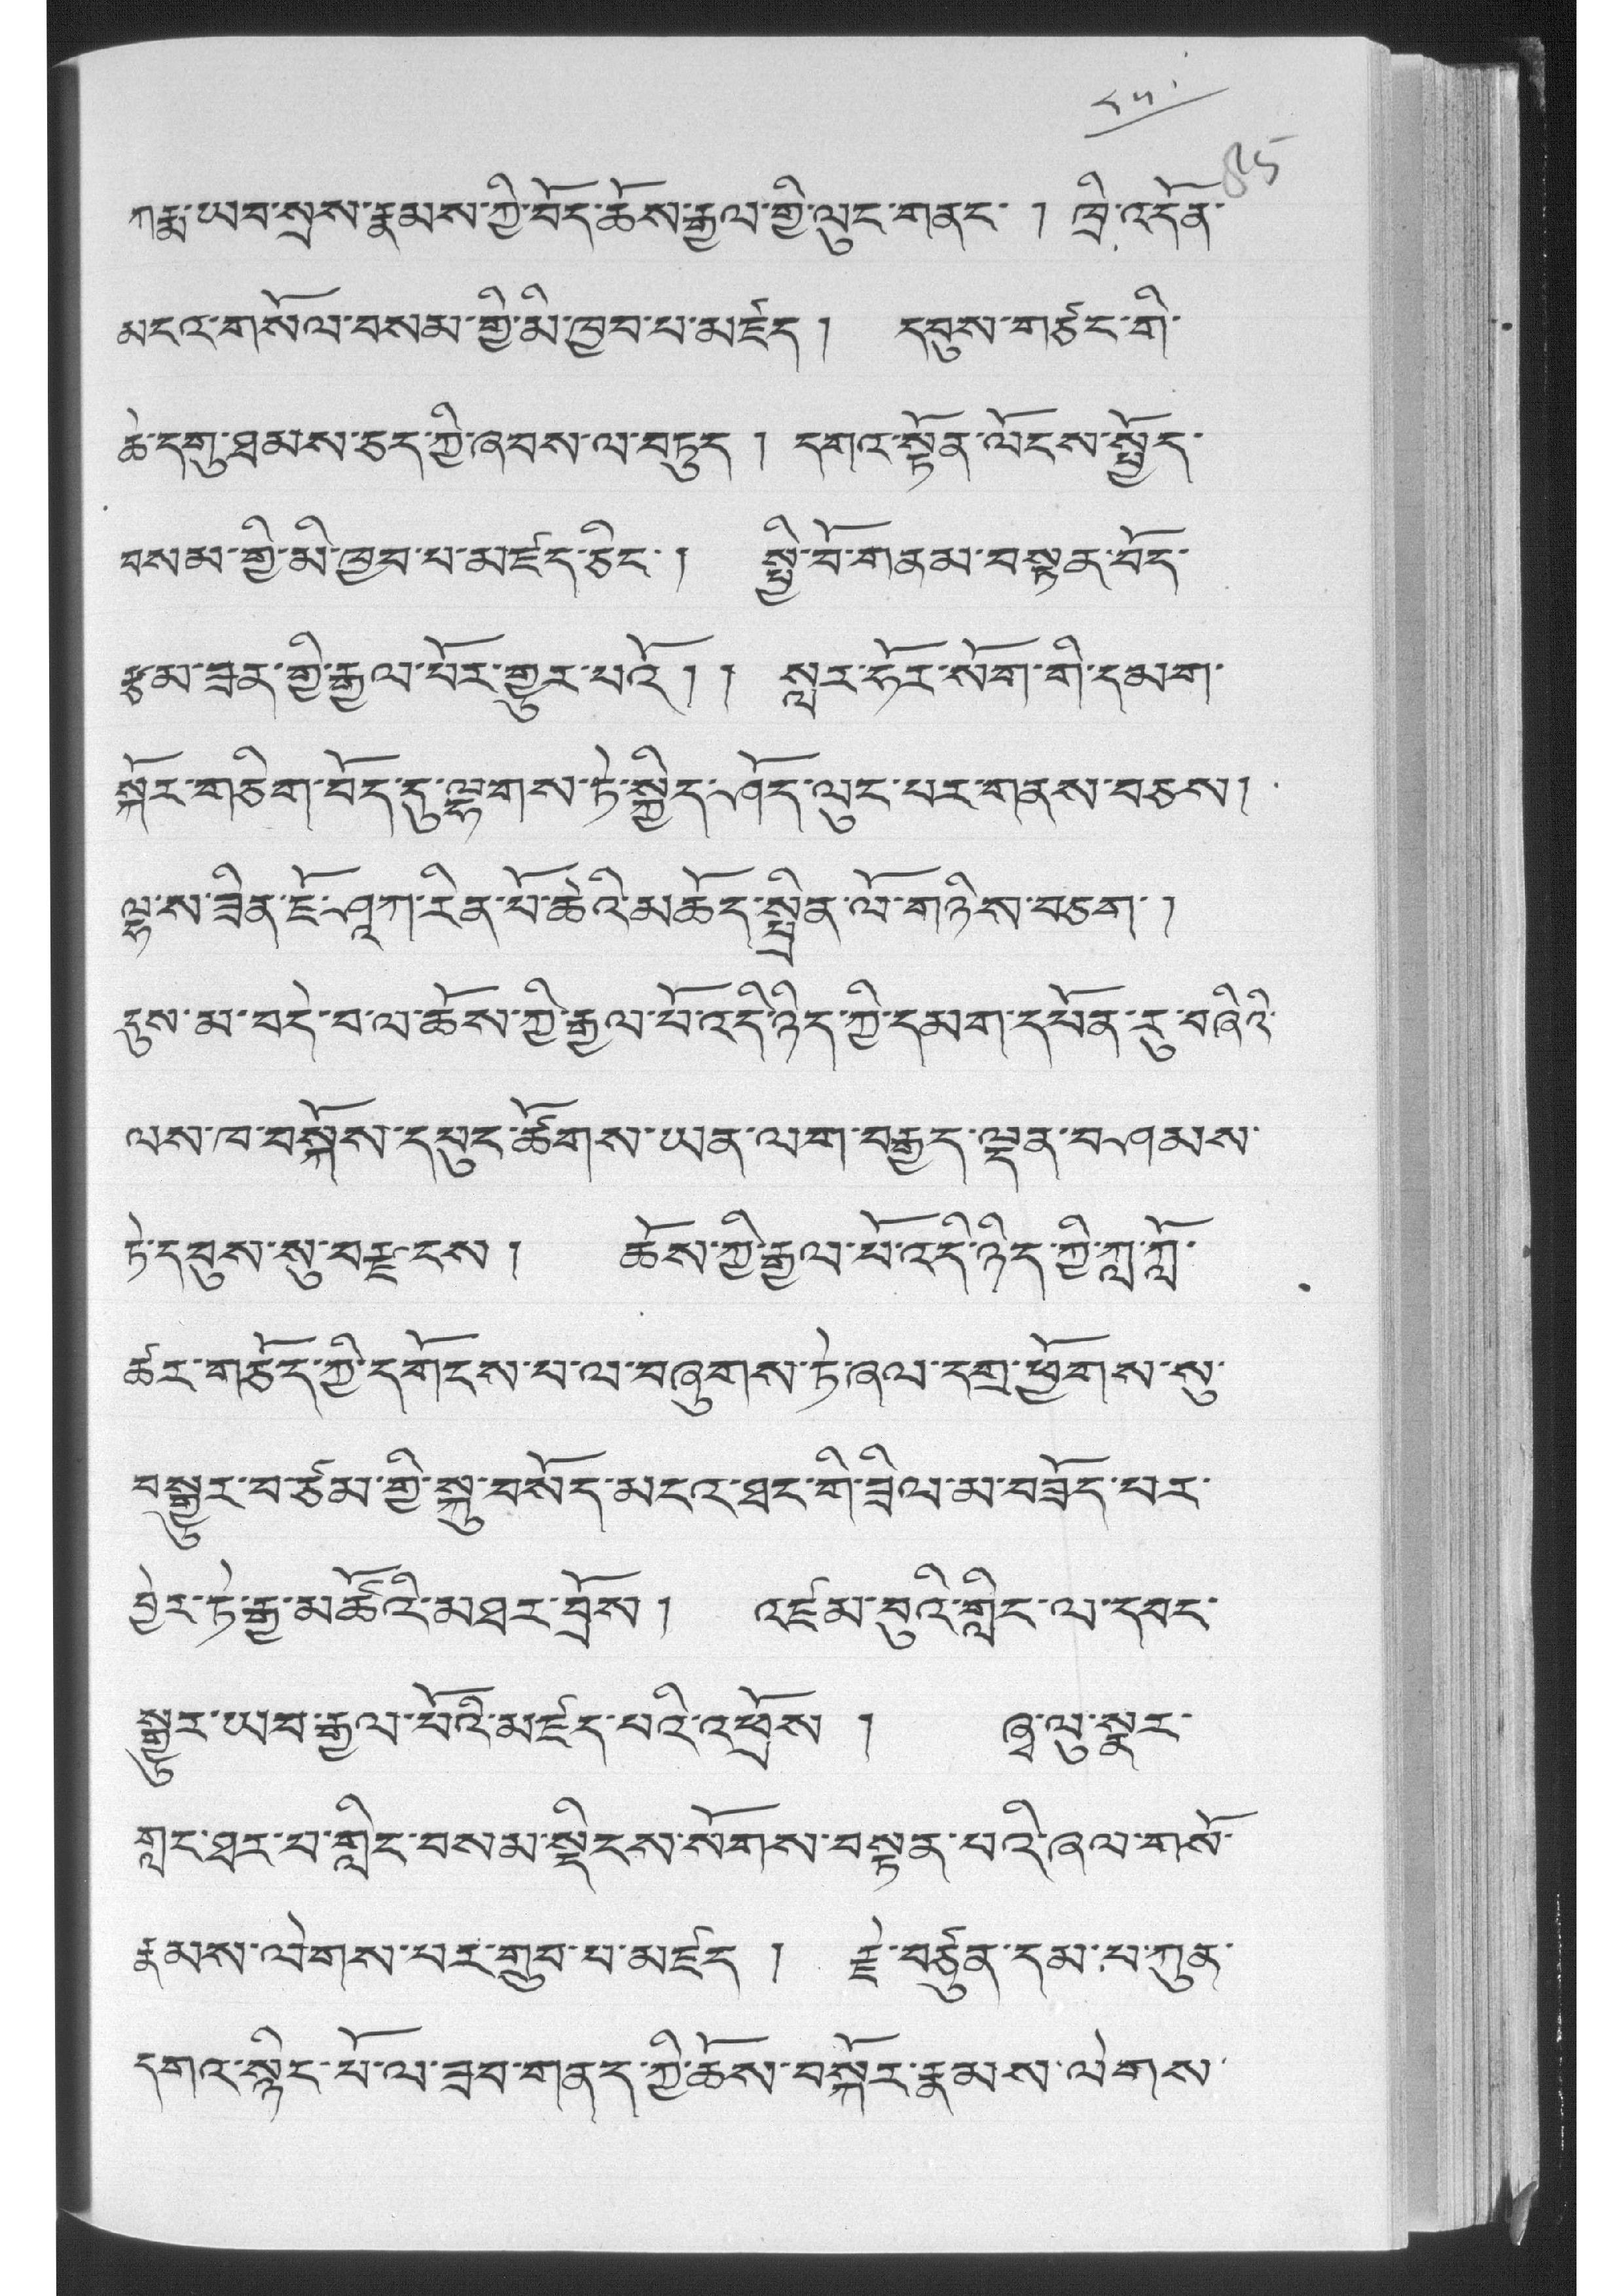༨༥
ཀརྨ་ཡབ་སྲས་རྣམས་ཀྱི་བོད་ཆོས་རྒྱལ་གྱི་ལུང་གནང་ ། ཁྲི་འདོན་
མདའ་གསོལ་བསམ་གྱི་མི་ཁྱབ་པ་མཛད། དབུས་གཙང་གི་
ཆེ་དགུ་ཐམས་ཅད་ཀྱི་ཞབས་ལ་བཏུད ། དགའ་སྟོན་ལོངས་སྤྱོད་
བསམ་གྱི་མི་ཁྱམ་པ་མཛད་ཅིང་། སྤྱི་བོ་གནམ་བསྟན་བོད་
རྩམ་ཟན་གྱི་རྒྱལ་པོར་གྱུར་པའོ།། སླར་ཧོར་སོག་གི་དམག་
སྐོར་གཅིག་བོད་དུ་ལྷགས་ཏེ་སྐྱིད་ཤོད་ལུང་པར་གནས་བཅས།
ལྷ་ས་ཟིན་ཇོ་ཤླཀ་རིན་པོ་ཆེའི་མཆོད་སྤྲིན་ལོ་གཉིས་བཅག་།
དུས་མ་བདེ་བ་ལ་ཆོས་ཀྱི་རྒྱལ་པོ་འདི་ཉིད་ཀྱི་དམག་དཔོན་རུ་བཞིའི་
ལས་ཁ་བསྐོས་དཔུང་ཚོགས་ཡིན་ལག་བརྒྱད་ལྡན་བཤམས་
ཏེ་དབུས་སུ་བརྫ་ངས། ཆོས་ཀྱི་རྒྱལ་པོ་འདི་ཉིད་ཀྱི་ཀླ་ཀློ་
ཚར་གཅོད་ཀྱི་དགོངས་པ་ལ་བཞུགས་ཏེ་ཞལ་དགྲ་ཕྱོགས་སུ་
བསྒྱུར་བཙམ་གྱི་སྐུ་བསོད་མངའ་ཐང་གི་ཟིལ་མ་བཟོད་པར་
བྱེར་ཏེ་རྒྱ་མཚོའི་མཐར་བྲོས། འཛམ་བུའི་གླིང་ལ་དབང་
སྒྱུར་ཡར་རྒྱལ་པོའི་མཛད་པའི་འཕྲོས ། ཞྭ་ལུ་སྣར་
གླང་ཐར་བ་གླིང་བསམ་སྡིངས་སོགས་བསྟན་པའི་ཞལ་གསོ་
རྣམས་ལེགས་པར་གྲུབ་བ་མཛད ། རྗེ་བཙུན་དམ་པ་ཀུན་
དགའ་སྙིང་པོ་ལ་ཟབ་གནད་ཀྱི་ཆོས་བསྐོར་རྣམས་ལེགས་
